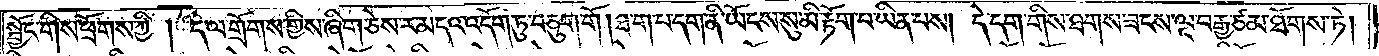སྦྱོང་གིས་ཕྲོགས་ཀྱི། དེ་ལ་གྲོགས་ཀྱིས་ཞིག་ཅེས་ར་མདའ་འདོག་ཏུ་བཅུག་གོ །ཐ་ག་པ་དག་ནི་ཡོངས་སུ་མི་རྟོག་པ་ཡིན་པས། དེ་དག་གིས་ཐགས་ཟངས་ལྔ་བརྒྱ་ཙམ་ཐོགས་ཏེ།
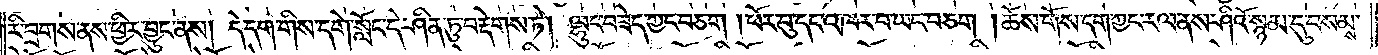རི་བྲགས་ནས་ཕྱིར་བྱུང་ནས། དེ་དག་གིས་དགེ་སློང་དེ་ཤིན་ཏུ་བརྡེགས་ཏེ། ལྷུང་བཟེད་ཀྱང་བཅག །ཕོར་བུ་དང་འཁར་བ་ཡང་བཅག །ཆོས་གོས་དག་ཀྱང་རལ་ནས་ཤིའོ་སྙམ་དུ་བསམས་
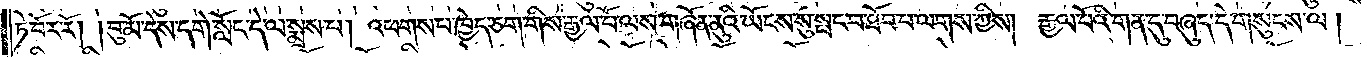ཏེ་བོར་རོ། །བུ་མོ་དེས་དགེ་སློང་དེ་ལ་སྨྲས་པ། འཕགས་པ་ཁྱེད་ཅག་གིས་རྒྱལ་པོ་ལས་གཞོན་ནུའི་ཡོངས་སུ་སྤང་པ་ཐོབ་པ་ལགས་ཀྱིས། རྒྱལ་པོའི་གན་དུ་བཞུད་དེ་གསུངས་ལ།
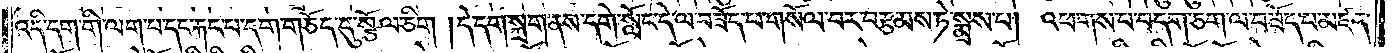འདི་དག་གི་ལག་པ་དང་རྐང་པ་དག་གཅོད་དུ་སྩོལ་ཅིག །དེ་དག་སྐྲག་ནས་དགེ་སློང་དེ་ལ་བཟོད་པ་གསོལ་བར་བརྩམས་ཏེ་སྨྲས་པ། འཕགས་པ་བདག་ཅག་ལ་བཟོད་པ་མཛད་
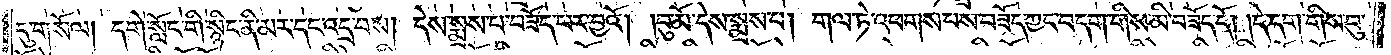དུ་གསོལ། དགེ་སློང་གི་སྙིང་ནི་མར་དང་འདྲ་བས། དེས་སྨྲས་པ་བཟོད་པར་བྱའོ། །བུ་མོ་དེས་སྨྲས་པ། གལ་ཏེ་འཕགས་པས་བཟོད་ཀྱང་བདག་གིས་མི་བཟོད་དོ། །དེ་དག་གིས་བུ་
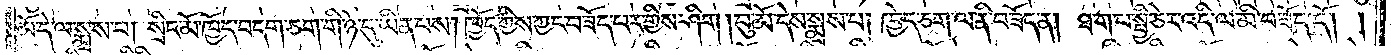མོ་དེ་ལ་སྨྲས་པ། སྲིང་མོ་ཁྱོད་བདག་ཅག་གི་ཉེ་དུ་ཡིན་པས། ཁྱོད་ཀྱིས་ཀྱང་བཟོད་པར་གྱིས་ཤིག །བུ་མོ་དེས་སྨྲས་པ། ཁྱེད་ཅག་ལ་ནི་བཟོད་ན། ཐ་ག་པ་སྤྱི་ཅེར་འདི་ལ་མི་བཟོད་དོ། །
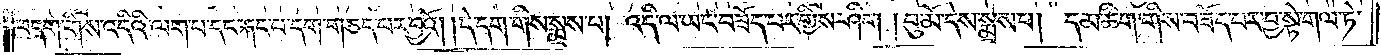བདག་གིས་འདིའི་ལག་པ་དང་རྐང་པ་དག་གཅད་པར་བྱའོ། །དེ་དག་གིས་སྨྲས་པ། འདི་ལ་ཡང་བཟོད་པར་གྱིས་ཤིག །བུ་མོ་དེས་སྨྲས་པ། དམ་ཚིག་གིས་བཟོད་པར་བྱ་སྟེ་གལ་ཏེ་
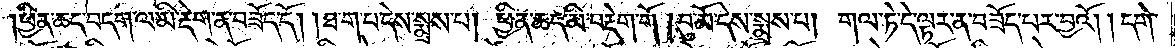ཕྱིན་ཆད་བདག་ལ་མི་རྡེག་ན་བཟོད་དོ། །ཐ་ག་པ་དེས་སྨྲས་པ། ཕྱིན་ཆད་མི་བརྡེག་གོ །བུ་མོ་དེས་སྨྲས་པ། གལ་ཏེ་དེ་ལྟར་ན་བཟོད་པར་བྱའོ། །དགེ་
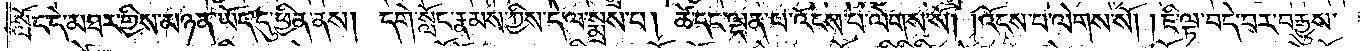སློང་དེ་མཐར་གྱིས་མཉན་ཡོད་དུ་ཕྱིན་ནས། དགེ་སློང་རྣམས་ཀྱིས་དེ་ལ་སྨྲས་པ། ཚེ་དང་ལྡན་པ་འོངས་པ་ལེགས་སོ། །འོངས་པ་ལེགས་སོ། །ཇི་ལྟ་བདེ་བར་བརྒྱུས་
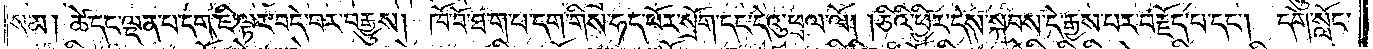སམ། ཚེ་དང་ལྡན་པ་དག་ཇི་ལྟར་བདེ་བར་བརྒྱུས། ཁོ་བོ་ཐ་ག་པ་དག་གིས་ཧད་པོར་སྲོག་དང་དེའུ་ཕྲལ་ལོ། །ཅིའི་ཕྱིར་དེས་སྐབས་དེ་རྒྱས་པར་བརྗོད་པ་དང༌། དགེ་སློང་
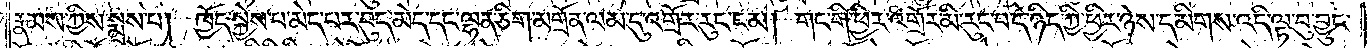རྣམས་ཀྱིས་སྨྲས་པ། ཁྱོད་སྐྱེས་པ་མེད་པར་བུད་མེད་དང་ལྷན་ཅིག་མགྲོན་ལམ་དུ་འགྲོར་རུང་ངམ། གང་གི་ཕྱིར་འགྲོར་མི་རུང་བ་དེ་ཉིད་ཀྱི་ཕྱིར་ཉེས་དམིགས་འདི་ལྟ་བུ་བྱུང་
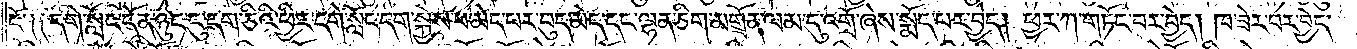ངོ༑ ༑དགེ་སློང་དོན་ཉུང་དུ་དག་ཅིའི་ཕྱིར་དགེ་སློང་དག་སྐྱེས་པ་མེད་པར་བུད་མེད་དང་ལྷན་ཅིག་མགྲོན་ལམ་དུ་འགྲོ་ཞེས་སྨོད་པར་བྱེད། ཕྱར་ཀ་གཏོང་བར་བྱེད། ཁ་ཟེར་བར་བྱེད་
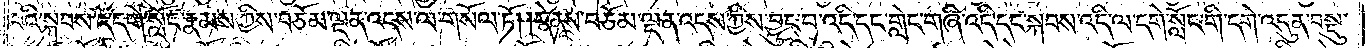པའི་སྐབས་དེ་དགེ་སློང་རྣམས་ཀྱིས་བཅོམ་ལྡན་འདས་ལ་གསོལ་ཏོ། །དེ་ནས་བཅོམ་ལྡན་འདས་ཀྱིས་བྱུང་བ་འདི་དང་གླེང་གཞི་འདི་དང་སྐབས་འདི་ལ་དགེ་སློང་གི་དགེ་འདུན་བསྡུ་
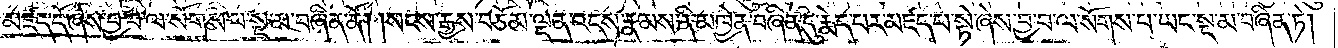བ་མཛད་དོ་ཞེས་བྱ་བ་ལ་སོགས་པ་སྔ་མ་བཞིན་ནོ། །སངས་རྒྱས་བཅོམ་ལྡན་འདས་རྣམས་ནི་མཁྱེན་བཞིན་དུ་རྨེད་པར་མཛད་པ་སྟེ་ཞེས་བྱ་བ་ལ་སོགས་པ་ཡང་སྔ་མ་བཞིན་ཏེ།
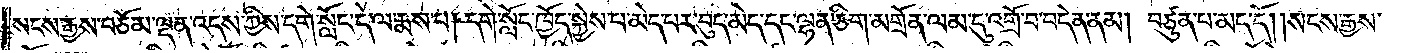སངས་རྒྱས་བཅོམ་ལྡན་འདས་ཀྱིས་དགེ་སློང་དེ་ལ་རྨས་པ། དགེ་སློང་ཁྱོད་སྐྱེས་པ་མེད་པར་བུད་མེད་དང་ལྷན་ཅིག་མགྲོན་ལམ་དུ་འགྲོ་བ་བདེན་ནམ། བཙུན་པ་མད་དོ། །སངས་རྒྱས་
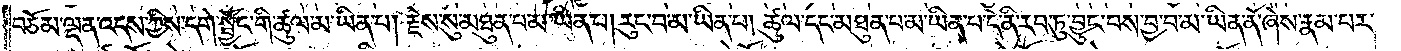བཅོམ་ལྡན་འདས་ཀྱིས་དགེ་སྦྱོང་གི་ཚུལ་མ་ཡིན་པ། རྗེས་སུ་མཐུན་པ་མ་ཡིན་པ། རུང་བ་མ་ཡིན་པ། ཚུལ་དང་མཐུན་པ་མ་ཡིན་པ་དེ་ནི་རབ་ཏུ་བྱུང་བས་བྱ་བ་མ་ཡིན་ནོ་ཞེས་རྣམ་པར་
